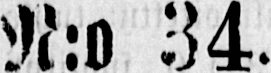N:o 34.
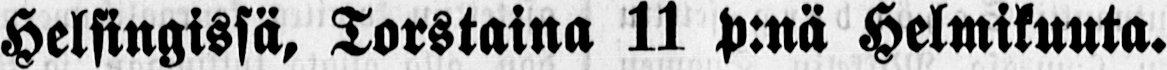Helsingissä, Torstaina 11 p:nä Helmikuuta.
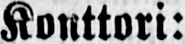Konttori:
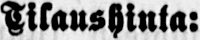Tilaushinta:
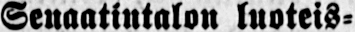Senaatintalon luoteis-
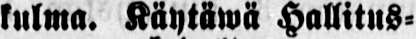kulma. Käytäwä Hallitus-
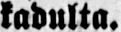kadulta.
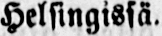Helsingissä.
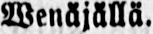Wenäjällä.
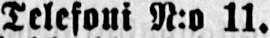Telefoni N:o 11.
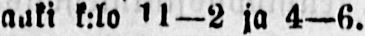auki k:lo 1l—2 ja 4—6.
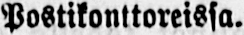Postikonttoreissa.
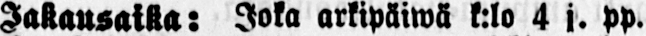Jakausaika: Joka arkip ä iw ä k:lo 4 i. PP.
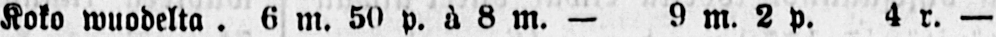Koko wuodelta. 6 m. 50 p. ä 8 m. — 9 m. 2 p. 4 r. —
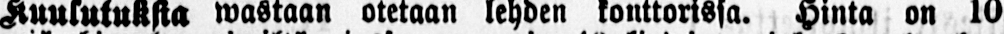Kuulutuksia wastaan otetaan lehden konttorissa. Hinta on 10
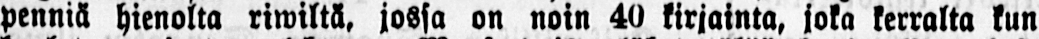penniä hienolta riwilt ä , jossa on noin 40 kirjainta, joka kerralta kun
